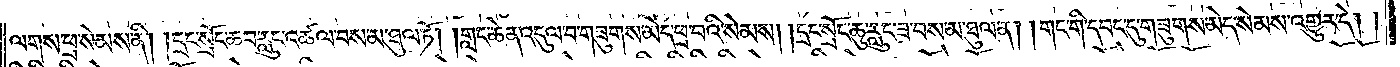ལགས་ཕྲ་སེམས་ནི། །དྲང་སྲོང་ཆབ་རླུང་འཚལ་བས་མ་ཐུལ་ཏོ། །གླང་ཆེན་འདུལ་བ་གཟུགས་མེད་ཕྲ་བའི་སེམས། །དྲང་སྲོང་ཆུ་རླུང་ཟ་བས་མ་ཐུལ་ན། །གང་གི་དབང་དུ་གཟུགས་མེད་སེམས་འགྱུར་དེ། །
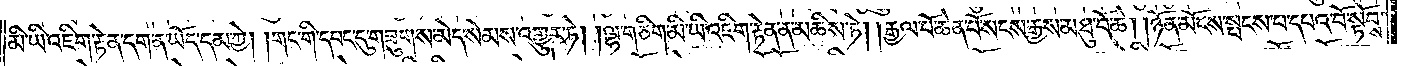མི་ཡི་འཇིག་རྟེན་དག་ན་ཡོད་དམ་ཀྱེ། །གང་གི་དབང་དུ་གཟུགས་མེད་སེམས་འགྱུར་ཏེ། །ལྷ་གཅིག་མི་ཡི་འཇིག་རྟེན་ན་མཆིས་ཏེ། །རྒྱལ་པོ་ཆེན་པོ་སངས་རྒྱས་མཐུ་བོ་ཆེ། །ཉོན་མོངས་སྤངས་པ་དཔའ་བོ་སྟོབས་
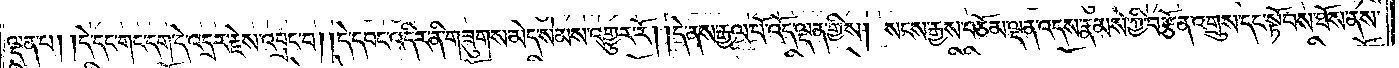ལྡན་པ། །དེ་དང་གང་དག་དེ་འདྲར་རྗེས་འབྲང་བ། །དེ་དབང་འདིར་ནི་གཟུགས་མེད་སེམས་འགྱུར་རོ། །དེ་ནས་རྒྱལ་པོ་འོད་ལྡན་གྱིས། །སངས་རྒྱས་བཅོམ་ལྡན་འདས་རྣམས་ཀྱི་བརྩོན་འགྲུས་དང་སྟོབས་ཐོས་ནས་
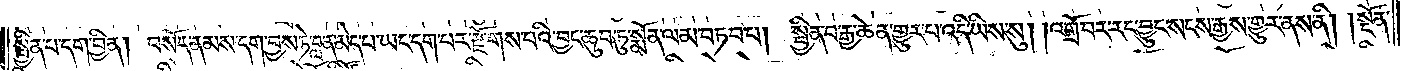སྦྱིན་པ་དག་བྱིན། བསོད་ནམས་དག་བྱས་ཏེ་བླ་ན་མེད་པ་ཡང་དག་པར་རྫོགས་པའི་བྱང་ཆུབ་ཏུ་སྨོན་ལམ་བཏབ་པ། སྦྱིན་པ་རྒྱ་ཆེན་གྱུར་པ་འདི་ཡིས་སུ། །འགྲོ་བར་རང་བྱུང་སངས་རྒྱས་གྱུར་ནས་ནི། །སྔོན་
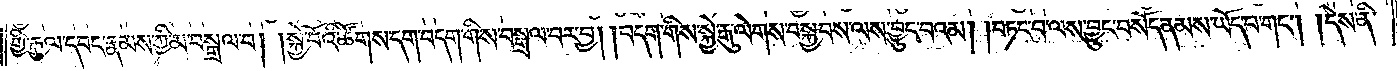གྱི་རྒྱལ་དབང་རྣམས་ཀྱི་མ་བསྒྲལ་བ། །སྐྱེ་བོའི་ཚོགས་དག་བདག་གིས་བསྒྲལ་བར་བྱ། །བདག་གིས་སྐྱེ་རྒྱུ་ལེགས་བསྐྱབས་ལས་བྱུང་ངམ། །བཏང་བ་ལས་བྱུང་བ་བསོད་ནམས་ཡོད་པ་གང༌། །དེས་ནི་
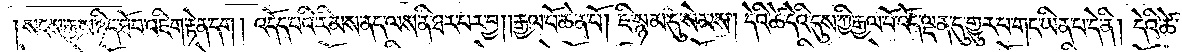སངས་རྒྱས་ཉིད་ཐོབ་འཇིག་རྟེན་དག །འདོད་པའི་རིམས་ནད་ལས་ནི་ཐར་པར་བྱ། །རྒྱལ་པོ་ཆེན་པོ། ཇི་ཙམ་དུ་སེམས། །དེའི་ཚེ་དེའི་དུས་ཀྱིས་རྒྱལ་པོ་འོད་ལྡན་དུ་གྱུར་པ་གང་ཡིན་པ་དེ་ནི། དེའི་ཚེ་
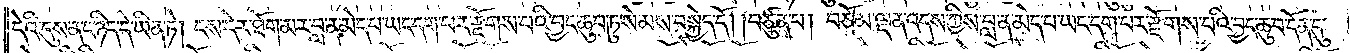དེའི་དུས་ན་ང་ཉིད་དེ་ཡིན་ཏེ། །ངས་དེར་ཐོག་མར་བླ་ན་མེད་པ་ཡང་དག་པར་རྫོགས་པའི་བྱང་ཆུབ་ཏུ་སེམས་བསྐྱེད་དོ། །བཙུན་པ། བཅོམ་ལྡན་འདས་ཀྱིས་བླ་ན་མེད་པ་ཡང་དག་པར་རྫོགས་པའི་བྱང་ཆུབ་དོན་དུ་
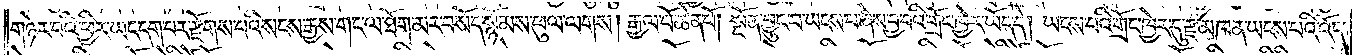གཉེར་བའི་ཕྱིར་ཡང་དག་པར་རྫོགས་པའི་སངས་རྒྱས་གང་ལ་ཐོག་མར་བསོད་སྙོམས་ཕུལ་ལགས། རྒྱལ་པོ་ཆེན་པོ། སྔོན་བྱུང་བ་ཡངས་པ་ཞེས་བྱ་བའི་གྲོང་ཁྱེར་ཡོད་དེ། ཡངས་པའི་གྲོང་ཁྱེར་དུ་རྫ་མཁན་ཡངས་པའི་འོད་
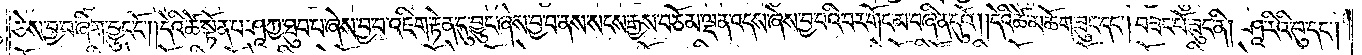ཅེས་བྱ་བ་ཞིག་བྱུང་ངོ༌། །དེའི་ཚེ་སྟོན་པ་ཤཱཀྱ་ཐུབ་པ་ཞེས་བྱ་བ་འཇིག་རྟེན་དུ་བྱུང་ཞེས་བྱ་བ་ནས་སངས་རྒྱས་བཅོམ་ལྡན་འདས་ཞེས་བྱ་བའི་བར་གོང་མ་བཞིན་དུའོ། །དེའི་ཚེ་མཆོག་ཟུང་དང༌། བཟང་པོ་ཟུང་ནི། ཤཱ་རིའི་བུ་དང༌།
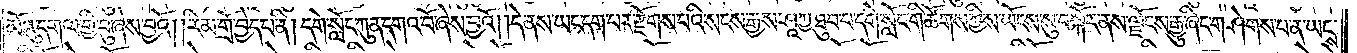མོའུ་དགལ་གྱི་བུ་ཞེས་བྱའོ། །རིམ་གྲོ་བྱེད་པ་ནི། དགེ་སློང་ཀུན་དགའ་བོ་ཞེས་བྱའོ། །དེ་ནས་ཡང་དག་པར་རྫོགས་པའི་སངས་རྒྱས་ཤཱཀྱ་ཐུབ་པ་དགེ་སློང་གི་ཚོགས་ཀྱིས་ཡོངས་སུ་བསྐོར་ནས་ལྗོངས་རྒྱུ་ཞིང་གཤེགས་པ་ན་ཡངས་
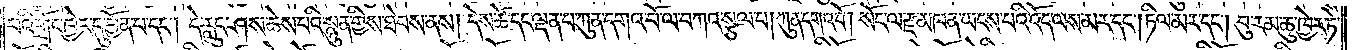པའི་གྲོང་ཁྱེར་དུ་བྱོན་པ་དང༌། དེ་རླུང་ཤས་ཆེས་པའི་སྙུན་གྱིས་ཐེབས་ནས། དེས་ཚེ་དང་ལྡན་པ་ཀུན་དགའ་བོ་ལ་བཀའ་སྩལ་པ། ཀུན་དགའ་བོ། སོང་ལ་རྫ་མཁན་ཡངས་པའི་འོད་ལས་མར་དང༌།ཏིལ་མར་དང༌། བུ་རམ་ཆུ་ཁྱེར་ཏེ་
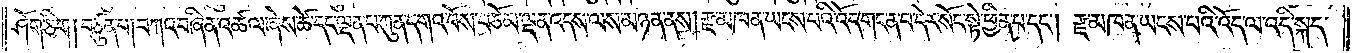ཤོག་ཅིག །བཙུན་པ། བཀའ་བཞིན་འཚལ་ཞེས་ཚེ་དང་ལྡན་པ་ཀུན་དགའ་བོས་བཅོམ་ལྡན་འདས་ལས་མཉན་ནས། རྫ་མཁན་ཡངས་པའི་འོད་གང་ན་བ་དེར་སོང་སྟེ་ཕྱིན་པ་དང༌། རྫ་མཁན་ཡངས་པའི་འོད་ལ་འདི་སྐད་
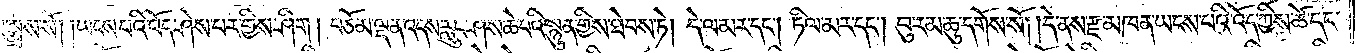ཅེས་སྨྲས་སོ། །ཡངས་པའི་འོད་ཤེས་པར་གྱིས་ཤིག །བཅོམ་ལྡན་འདས་རླུང་ཤས་ཆེ་བའི་སྙུན་གྱིས་ཐེབས་ཏེ། དེ་ལ་མར་དང༌། ཏིལ་མར་དང༌། བུ་རམ་ཆུ་དགོས་སོ། །དེ་ནས་རྫ་མཁན་ཡངས་པའི་འོད་ཀྱིས་ཚེ་དང་
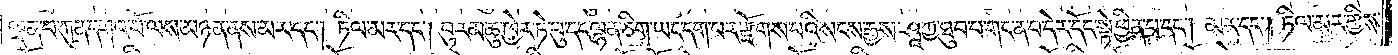ལྡན་པ་ཀུན་དགའ་བོ་ལས་མཉན་ནས་མར་དང༌། ཏིལ་མར་དང༌། བུ་རམ་ཆུ་ཁྱེར་ཏེ་བུ་དང་ལྷན་ཅིག་ཡང་དག་པར་རྫོགས་པའི་སངས་རྒྱས་ཤཱཀྱ་ཐུབ་པ་གང་ན་བ་དེར་དོང་སྟེ་ཕྱིན་པ་དང༌། མར་དང༌། ཏིལ་མར་གྱིས་
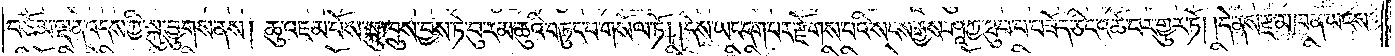བཅོམ་ལྡན་འདས་ཀྱིས་སྐུ་བྱུགས་ནས། ཆུ་འཇམ་པོས་སྐུ་ཁྲུས་བྱས་ཏེ་བུ་རམ་ཆུའི་བཏུང་བ་གསོལ་ཏོ། །དེས་ཡང་དག་པར་རྫོགས་པའི་སངས་རྒྱས་ཤཱཀྱ་ཐུབ་པ་བཟོད་ཅིང་འཚོ་བར་གྱུར་ཏོ་།དེ་ནས་རྫ་མཁན་ཡངས་
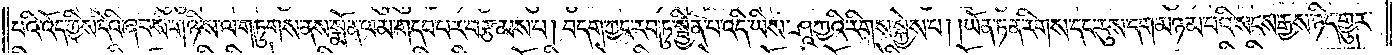པའི་འོད་ཀྱིས་དེའི་ཞབས་གཉིས་ལ་གཏུགས་ནས་སྨོན་ལམ་གདབ་པར་བརྩམས་པ། བདག་ཀྱང་རབ་ཏུ་སྦྱིན་པ་འདི་ཡིས། ཤཱཀྱའི་རིགས་སྐྱེས་པ། ཡོན་ཏན་རིགས་དང་རུས་དག་མཉམ་པའི་སངས་རྒྱས་ཉིད་གྱུར་
